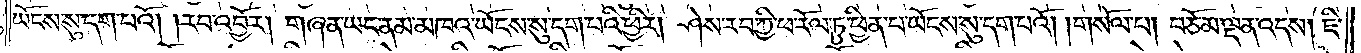ཡོངས་སུ་དག་པའོ། །རབ་འབྱོར། གཞན་ཡང་ནམ་མཁའ་ཡོངས་སུ་དག་པའི་ཕྱིར། ཤེས་རབ་ཀྱི་ཕ་རོལ་ཏུ་ཕྱིན་པ་ཡོངས་སུ་དག་པའོ། །གསོལ་པ། བཅོམ་ལྡན་འདས། ཇི་
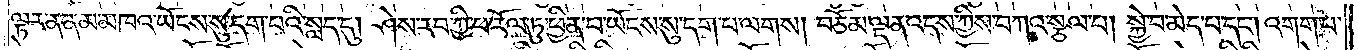ལྟར་ན་ནམ་མཁའ་ཡོངས་སུ་དག་པའི་སླད་དུ། ཤེས་རབ་ཀྱི་ཕ་རོལ་ཏུ་ཕྱིན་པ་ཡོངས་སུ་དག་པ་ལགས། བཅོམ་ལྡན་འདས་ཀྱིས་བཀའ་སྩལ་པ། སྐྱེ་བ་མེད་པ་དང༌། འགག་པ་
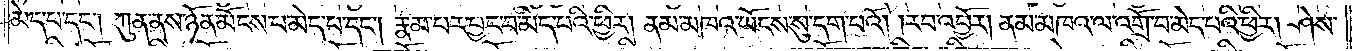མེད་པ་དང༌། ཀུན་ནས་ཉོན་མོངས་པ་མེད་པ་དང༌། རྣམ་པར་བྱང་བ་མེད་པའི་ཕྱིར། ནམ་མཁའ་ཡོངས་སུ་དག་པའོ། །རབ་འབྱོར། ནམ་མཁའ་ལ་འགྲོ་བ་མེད་པའི་ཕྱིར། ཤེས་
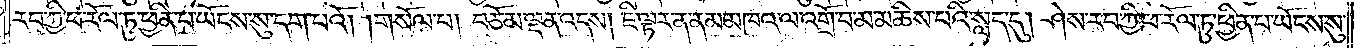རབ་ཀྱི་ཕ་རོལ་ཏུ་ཕྱིན་པ་ཡོངས་སུ་དག་པའོ། །གསོལ་པ། བཅོམ་ལྡན་འདས། ཇི་ལྟར་ན་ནམ་མཁའ་ལ་འགྲོ་བ་མ་མཆིས་པའི་སླད་དུ། ཤེས་རབ་ཀྱི་ཕ་རོལ་ཏུ་ཕྱིན་པ་ཡོངས་སུ་
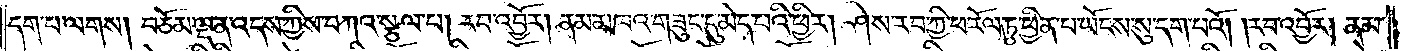དག་པ་ལགས། བཅོམ་ལྡན་འདས་ཀྱིས་བཀའ་སྩལ་པ། རབ་འབྱོར། ནམ་མཁའ་གཟུང་དུ་མེད་པའི་ཕྱིར། ཤེས་རབ་ཀྱི་ཕ་རོལ་ཏུ་ཕྱིན་པ་ཡོངས་སུ་དག་པའོ། །རབ་འབྱོར། ནམ་
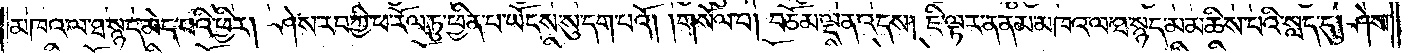མཁའ་ལ་ཐ་སྙད་མེད་པའི་ཕྱིར། ཤེས་རབ་ཀྱི་ཕ་རོལ་ཏུ་ཕྱིན་པ་ཡོངས་སུ་དག་པའོ། །གསོལ་པ། བཅོམ་ལྡན་འདས། ཇི་ལྟར་ན་ནམ་མཁའ་ལ་ཐ་སྙད་མ་མཆིས་པའི་སླད་དུ། ཤེས་
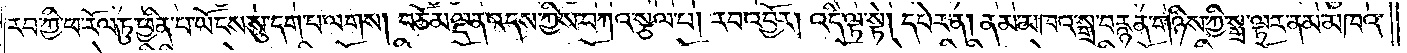རབ་ཀྱི་ཕ་རོལ་ཏུ་ཕྱིན་པ་ཡོངས་སུ་དག་པ་ལགས། བཅོམ་ལྡན་འདས་ཀྱིས་བཀའ་སྩལ་པ། རབ་འབྱོར། འདི་ལྟ་སྟེ། དཔེར་ན། ནམ་མཁའ་སྒྲ་བརྙན་གཉིས་ཀྱི་སྒྲ་ལྟར་ནམ་མཁའ་
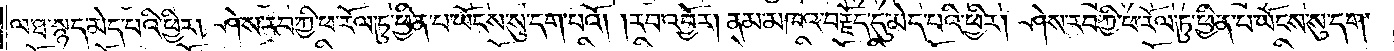ལ་ཐ་སྙད་མེད་པའི་ཕྱིར། ཤེས་རབ་ཀྱི་ཕ་རོལ་ཏུ་ཕྱིན་པ་ཡོངས་སུ་དག་པའོ། །རབ་འབྱོར། ནམ་མཁའ་བརྗོད་དུ་མེད་པའི་ཕྱིར། ཤེས་རབ་ཀྱི་ཕ་རོལ་ཏུ་ཕྱིན་པ་ཡོངས་སུ་དག་
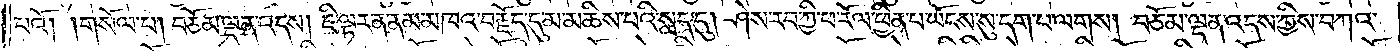པའོ། །གསོལ་པ། བཅོམ་ལྡན་འདས། ཇི་ལྟར་ན་ནམ་མཁའ་བརྗོད་དུ་མ་མཆིས་པའི་སླད་དུ། ཤེས་རབ་ཀྱི་ཕ་རོལ་ཏུ་ཕྱིན་པ་ཡོངས་སུ་དག་པ་ལགས། བཅོམ་ལྡན་འདས་ཀྱིས་བཀའ་
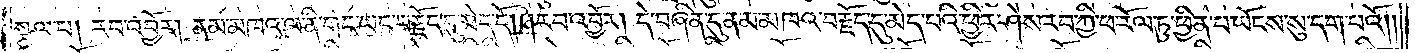སྩལ་པ། རབ་འབྱོར། ནམ་མཁའ་ལ་ནི་གང་ཡང་བརྗོད་དུ་མེད་དོ། །རབ་འབྱོར། དེ་བཞིན་དུ་ནམ་མཁའ་བརྗོད་དུ་མེད་པའི་ཕྱིར་ཤེས་རབ་ཀྱི་ཕ་རོལ་ཏུ་ཕྱིན་པ་ཡོངས་སུ་དག་པའོ། །
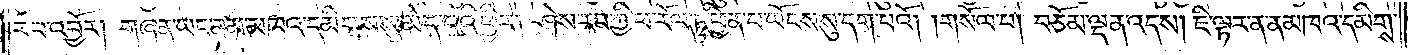རབ་འབྱོར། གཞན་ཡང་ནམ་མཁའ་དམིགས་སུ་མེད་པའི་ཕྱིར། ཤེས་རབ་ཀྱི་ཕ་རོལ་ཏུ་ཕྱིན་པ་ཡོངས་སུ་དག་པའོ། །གསོལ་པ། བཅོམ་ལྡན་འདས། ཇི་ལྟར་ན་ནམ་མཁའ་དམིགས་
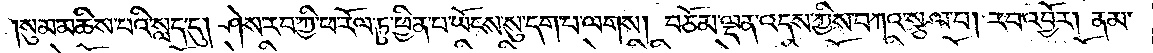སུ་མ་མཆིས་པའི་སླད་དུ། ཤེས་རབ་ཀྱི་ཕ་རོལ་ཏུ་ཕྱིན་པ་ཡོངས་སུ་དག་པ་ལགས། བཅོམ་ལྡན་འདས་ཀྱིས་བཀའ་སྩལ་པ། རབ་འབྱོར། ནམ་
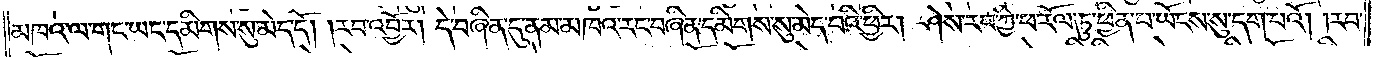མཁའ་ལ་གང་ཡང་དམིགས་སུ་མེད་དོ། །རབ་འབྱོར། དེ་བཞིན་དུ་ནམ་མཁའ་རང་བཞིན་དམིགས་སུ་མེད་པའི་ཕྱིར། ཤེས་རབ་ཀྱི་ཕ་རོལ་ཏུ་ཕྱིན་པ་ཡོངས་སུ་དག་པའོ། །རབ་
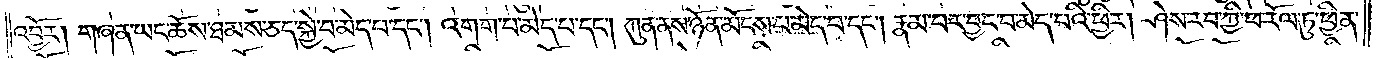འབྱོར། གཞན་ཡང་ཆོས་ཐམས་ཅད་སྐྱེ་བ་མེད་པ་དང༌། འགག་པ་མེད་པ་དང༌། ཀུན་ནས་ཉོན་མོངས་པ་མེད་པ་དང༌། རྣམ་པར་བྱང་བ་མེད་པའི་ཕྱིར། ཤེས་རབ་ཀྱི་ཕ་རོལ་ཏུ་ཕྱིན་
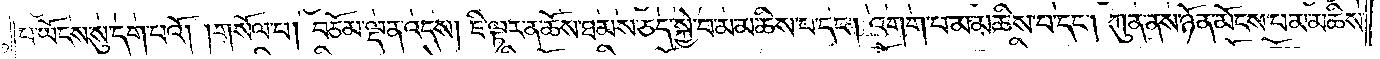པ་ཡོངས་སུ་དག་པའོ། །གསོལ་པ། བཅོམ་ལྡན་འདས། ཇི་ལྟར་ན་ཆོས་ཐམས་ཅད་སྐྱེ་བ་མ་མཆིས་པ་དང༌། འགག་པ་མ་མཆིས་པ་དང༌། ཀུན་ནས་ཉོན་མོངས་པ་མ་མཆིས་
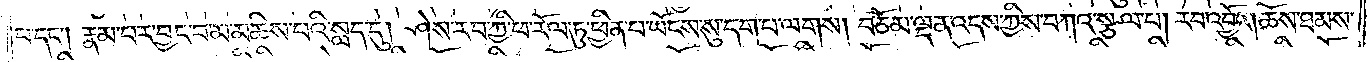པ་དང༌། རྣམ་པར་བྱང་བ་མ་མཆིས་པའི་སླད་དུ། ཤེས་རབ་ཀྱི་ཕ་རོལ་ཏུ་ཕྱིན་པ་ཡོངས་སུ་དག་པ་ལགས། བཅོམ་ལྡན་འདས་ཀྱིས་བཀའ་སྩལ་པ། རབ་འབྱོར། ཆོས་ཐམས་
